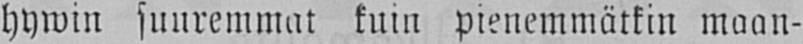hywin suuremmat kuin pienemmätkin maan-
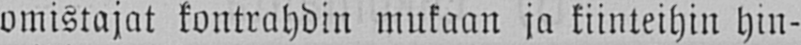omistajat kontrahdin mukaan ja kiinteihin hin-
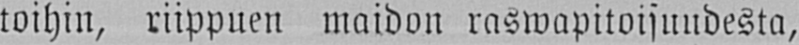toihin, riippuen maidon raswapitoisuudesta,
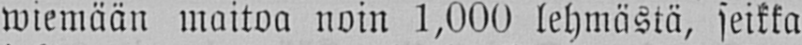wiemään maitoa noin l,000 lehmästä, seikka
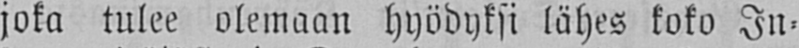joka tulee olemaan hyödyksi lähes koko In-
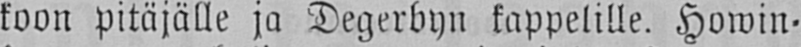koon pitäjälle ja Degerbyn kappelille. Howin-
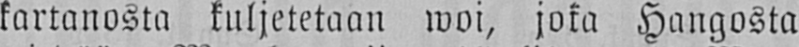kartanosta kuljetetaan woi, joka Hangosta
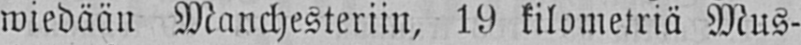wiedään Manchesteriin, 19 kilometriä Mus-
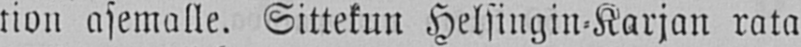tion asemalle. Sittekun Helsingin-Karjan rata
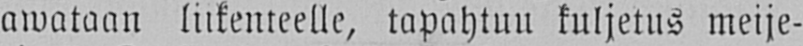awataan liikenteelle, tapahtuu kuljetus meije-
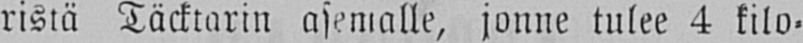ristä Täcktarin asemalle, jonne tulee 4 kilo-
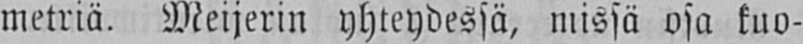metriä. Meijerin yhteydessä, missä osa kuo-
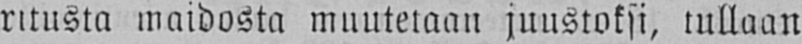ritusta maidosta muutetaan juustoksi, tullaan
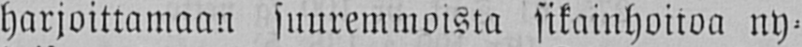harjoittamaan suuremmoista sikainhoitoa ny-
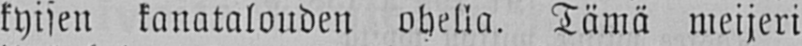kyisen kanatalouden ohella. Tämä meijeri
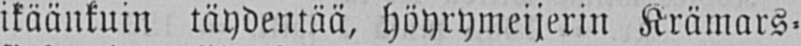ikäänkuin täydentää, höyrymeijerin Krämars-
